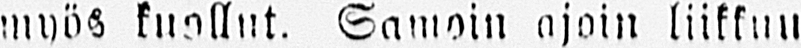myös kuollut. Samoin ajoin liikkuu
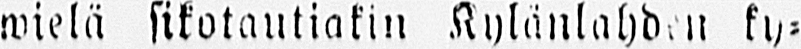wielä sikotautiakin Kylänlahden ky-
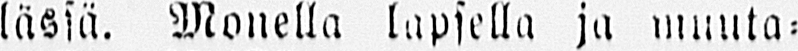lässä. Monella lapsella ja muuta-
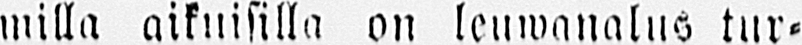milla aikuisilla on leuwanalus tur-
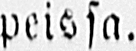peissa.
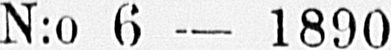N:o 6 — 1890
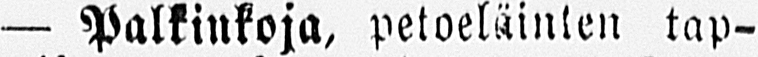— Palkinkoja, petoeläinten tap-
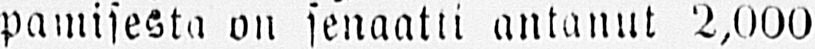pamisesta on senaatti antanut 2,000
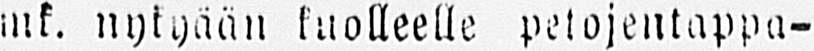mk. nykyään kuolleelle petojentappa-
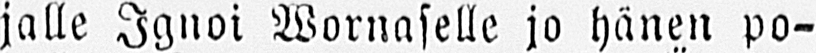jalle Ignoi Wornaselle jo hänen po-
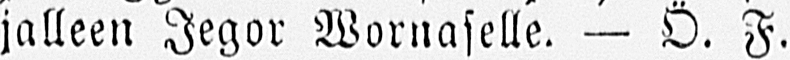julleen Jegor Wornaselle. — Ö. F.
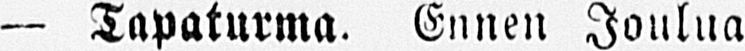— Tapaturma. Ennen Joulua
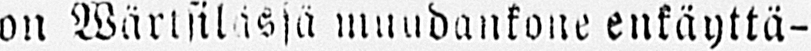on Wärisilässä muudankoneenkäyttä-
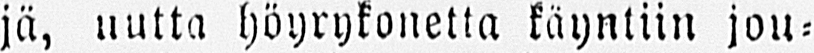jä, uutta höyrykonetta käyntiin jou-
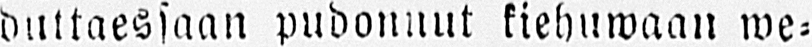duttaessaan pudonnut kiehuwaan we-
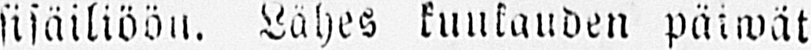sisäiliöön. Lähes kuukauden päiwät
